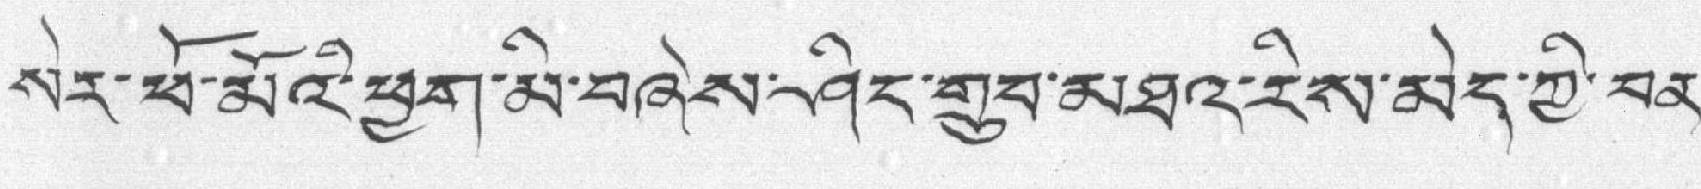སེར་ཕོ་མོའི་ཕྱག་མི་བཞེས་ཤིང་གྲུབ་མཐའ་རིས་མེད་ཀྱི་བན་
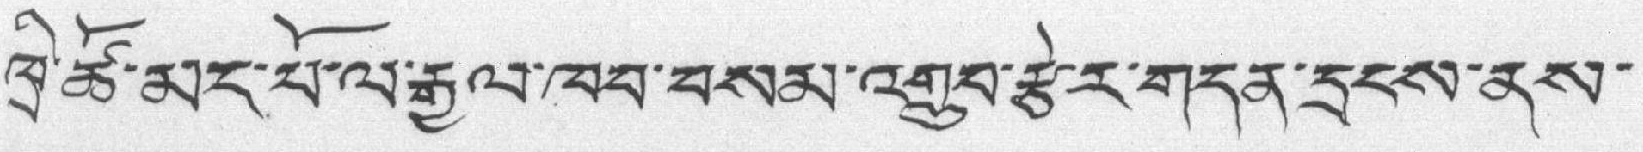ཁྲི་ཚོ་མང་པོ་ལ་རྒྱལ་ཁབ་བསམ་འགྲུབ་རྩེར་གདན་དྲངས་ནས་
